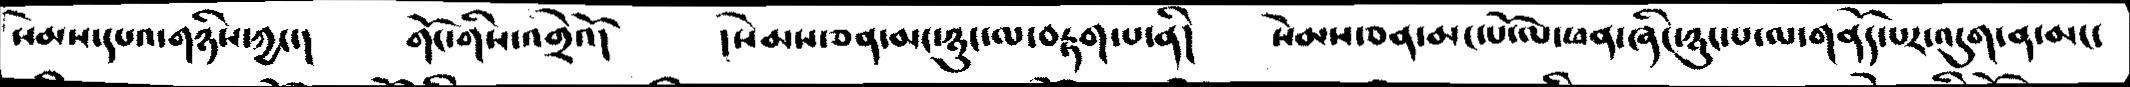སེམས་དཔའ་གཉིས་ཀྱང་།   གོང་གིས་འགྲེའོ།    །སེམས་ཅན་མང་ཉུང་ལ་བརྟག་པ་ནི།   སེམས་ཅན་མང་པོ་ལ་ཕན་ཞིང་ཉུང་པ་ལ་གནོད་པར་འདུག་ན་མང་
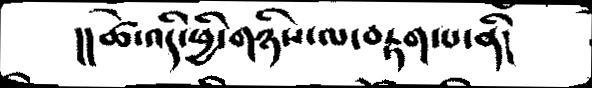།།ཚེ་འདི་ཕྱི་གཉིས་ལ་བརྟག་པ་ནི།
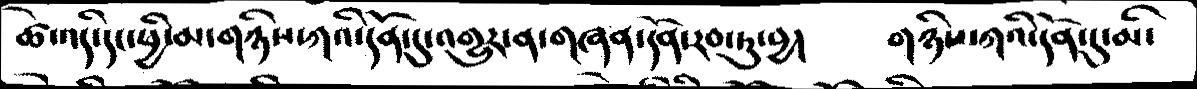ཚེ་འདི་དང་ཕྱི་མ་གཉིས་ཀའི་དོན་དུ་འགྱུར་ན་གཞན་དོན་རབ་ཏུ་བྱ།      གཉིས་ཀའི་དོན་དུ་མི་
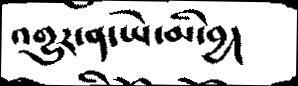འགྱུར་ན་ཡེ་མི་བྱ།
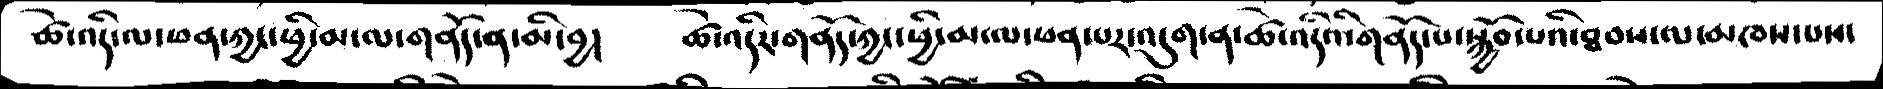ཚེ་འདི་ལ་ཕན་ཀྱང་ཕྱི་མ་ལ་གནོད་ན་མི་བྱ།  ཚེ་འདིར་གནོད་ཀྱང་ཕྱི་མ་ལ་ཕན་པར་འདུག་ན་ཚེ་འདིའི་གནོད་པ་སྐྱོབ་པའི་ཐབས་ལ་མཁས་པས་
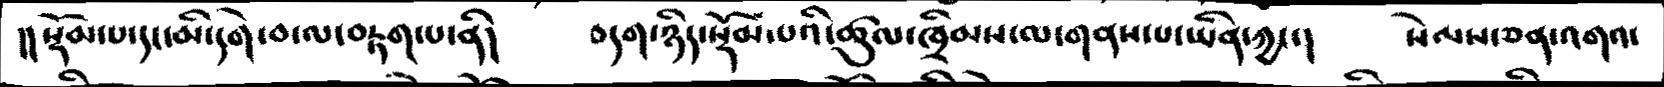།།སྡོམ་པ་དང་མི་དགེ་བ་ལ་བརྟག་པ་ནི།  བདག་ཉིད་སྡོམ་པའི་ཚུལ་ཁྲིམས་ལ་གནས་པ་ཡིན་ཀྱང་།  སེམས་ཅན་འགའ་
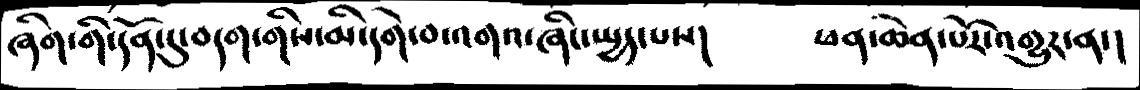ཞིག་གི་དོན་དུ་བདག་གིས་མི་དགེ་བ་འགའ་ཞིང་སྤྱད་པས།  ཕན་ཆེན་པོར་འགྱུར་ན་།
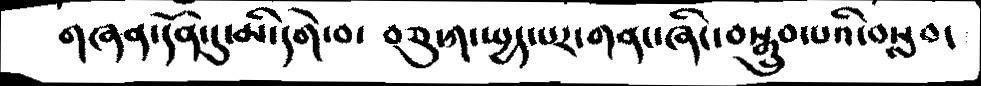གཞན་དོན་དུ་མི་དགེ་བ་  བཅུ་ཀ་སྤྱད་པར་གནང་ཞིང་བསྒྲུབ་པའི་བསླབ་
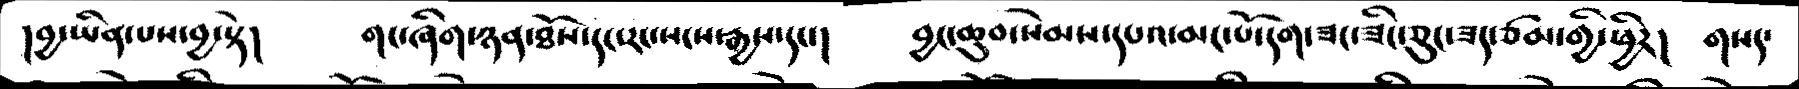།བྱ་ཡིན་པས་བྱ་སྟེ།     གང་ཞིག་ཉན་ཐོས་དང་རང་སངས་རྒྱས་དང་།     བྱང་ཆུབ་སེམས་དཔའ་མང་པོ་དག་ཟང་ཟིང་ཅུང་ཟད་ཙམ་གྱི་ཕྱིར།   གསད་
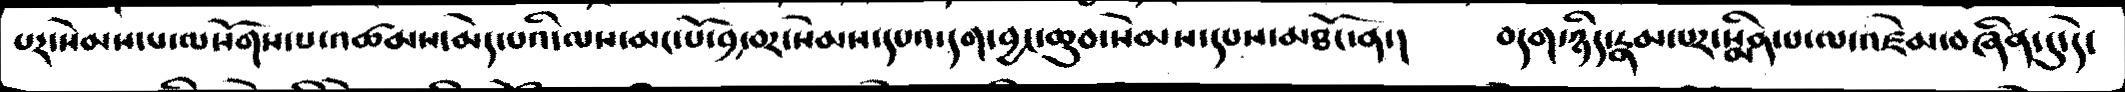པར་སེམས་པ་ལསོགས་པ་འཚམས་མེད་པའི་ལས་མང་པོ་བྱ་བར་སེམས་དཔའ་དག་བྱང་ཆུབ་སེམས་དཔས་མཐོང་ན་།    བདག་ཉིད་རྣམ་པར་སྨིན་པ་ལ་འཛེམ་བཞིན་དུ་དེ་
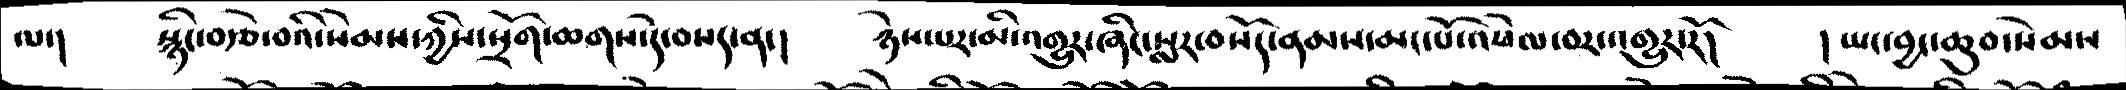ལ་།   སྙིང་བརྩེ་བའི་སེམས་ཀྱིས་སྲོག་ཆགས་དེ་བསད་ན་།   ཉེས་པར་མི་འགྱུར་ཞིང་སླར་བསོད་ནམས་མང་པོ་འཕེལ་བར་འགྱུར་རོ།   །ཡང་བྱང་ཆུབ་སེམས
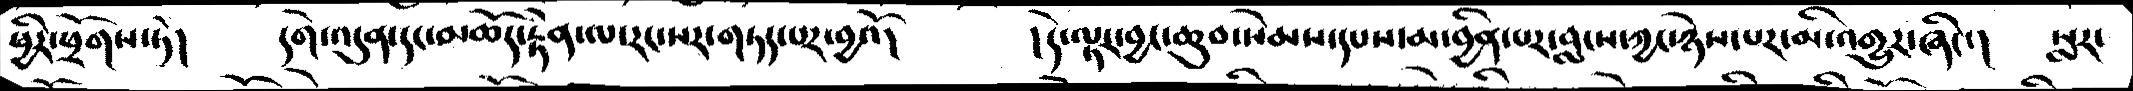ཕྱིར་ཕྲོགས་ཏེ།   དགེ་འདུན་དང་མཆོད་རྟེན་ལ་རང་སར་གཏད་པར་བྱའོ།     །དེ་ལྟར་བྱང་ཆུབ་སེམས་དཔས་མ་བྱིན་པར་བླངས་ཀྱང་ཉེས་པར་མི་འགྱུར་ཞིང་།   སླར་
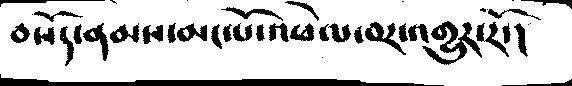བསོད་ནམས་མང་པོ་འཕེལ་བར་འགྱུར་རོ་།
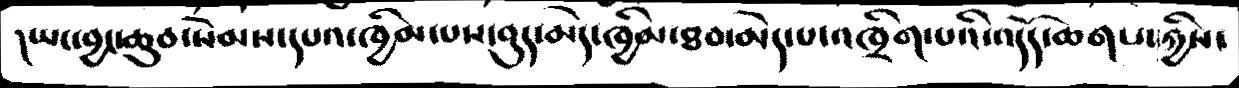།ཡང་བྱང་ཆུབ་སེམས་དཔའ་ཁྱིམ་པས་བུད་མེད་ཁྱིམ་ཐབ་མེད་པ་འཁྲིག་པའི་འདོད་ཆགས་ཀྱིས་
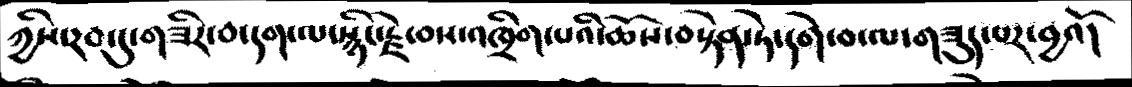ཀྱིས་རབ་དུ་གཟིར་བ་དག་ལ་སྙིང་རྗེ་བས་འཁྲིག་པའི་ཆོས་བསྟེན་ཏེ་དགེ་བ་ལ་གཟུད་པར་བྱའོ།
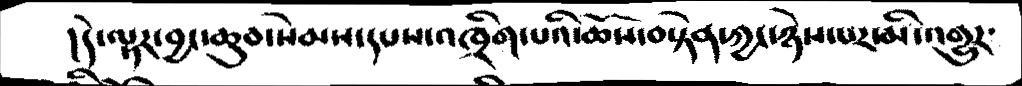།དེ་ལྟར་བྱང་ཆུབ་སེམས་དསས་འཁྲིག་པའི་ཆོས་བསྟེན་ཀྱང་ཉེས་པར་མི་འགྱུར་
